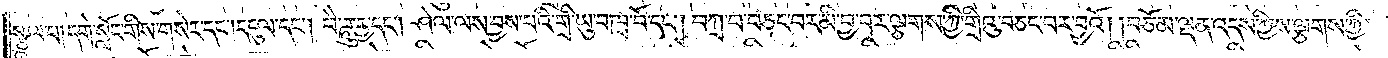སྩལ་པ། །དགེ་སློང་གིས་གསེར་དང༌། དངུལ་དང༌། བཻཌཱུཪྻ་དང༌། ཤེལ་ལས་བྱས་པའི་གྲི་ཡུ་བ་ཁྲ་བོ་དང༌། བཀྲ་བ་བཅང་བར་མི་བྱ་བར་ལྕགས་ཀྱི་གྲིའུ་བཅང་བར་བྱའོ། །བཅོམ་ལྡན་འདས་ཀྱིས་ལྕགས་ཀྱི་
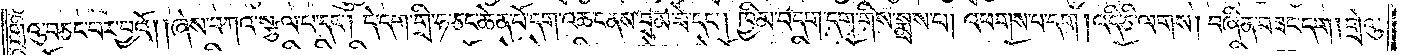གྲིའུ་བཅང་བར་བྱའོ། །ཞེས་བཀའ་སྩལ་པ་དང༌། དེ་དག་གྲི་ཧ་ཅང་ཆེན་པོ་དག་འཆང་ནས་བྲམ་ཟེ་དང༌། ཁྱིམ་བདག་དག་གིས་སྨྲས་པ། འཕགས་པ་དག །འདི་ཅི་ལགས། བཞིན་བཟང་དག །གྲེའུ་
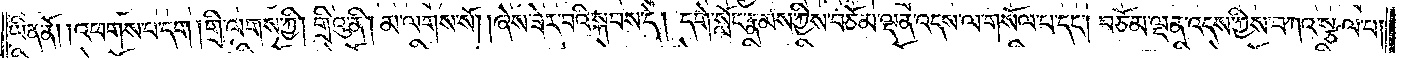ཡིན་ནོ། །འཕགས་པ་དག །གྲི་ལགས་ཀྱི། གྲིའུ་ནི། མ་ལགས་སོ། །ཞེས་ཟེར་བའི་སྐབས་དེ། དགེ་སློང་རྣམས་ཀྱིས་བཅོམ་ལྡན་འདས་ལ་གསོལ་བ་དང༌། བཅོམ་ལྡན་འདས་ཀྱིས་བཀའ་སྩལ་པ།
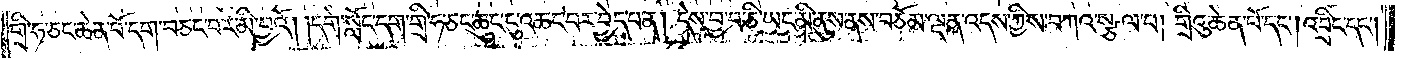གྲི་ཧ་ཅང་ཆེན་པོ་དག་བཅང་བར་མི་བྱའོ། །དགེ་སློང་དག་གྲི་ཧ་ཅང་ཆུང་ངུ་འཆང་བར་བྱེད་པ་ན། དེས་བྱ་བ་ཅི་ཡང་མི་ནུས་ནས་བཅོམ་ལྡན་འདས་ཀྱིས་བཀའ་སྩལ་པ། གྲིའུ་ཆེན་པོ་དང༌། འབྲིང་དང༌།
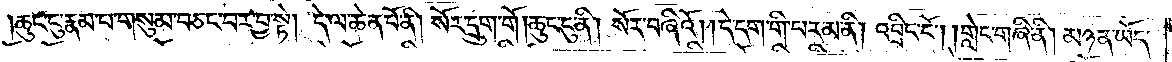ཆུང་ངུ་རྣམ་པ་གསུམ་བཅང་བར་བྱ་སྟེ། དེ་ལ་ཆེན་པོ་ནི། སོར་དྲུག་གོ །ཆུང་ངུ་ནི། སོར་བཞིའོ། །དེ་དག་གི་པར་མ་ནི། འབྲིང་ངོ༌། །གླེང་གཞི་ནི། མཉན་ཡོད་
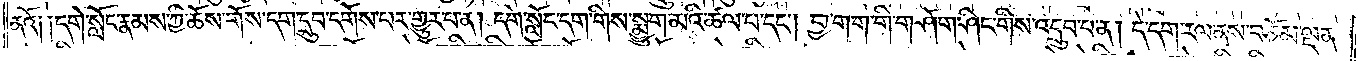ནའོ། །དགེ་སློང་རྣམས་ཀྱི་ཆོས་གོས་དག་དྲུབ་དགོས་པར་གྱུར་པ་ན། དགེ་སློང་དག་གིས་སྨྱུག་མའི་ཚལ་བ་དང༌། ཕྱག་ག་གི་གཤོག་ཤིང་གིས་འདྲུབ་པ་ན། དེ་དག་རལ་ནས་བཅོམ་ལྡན་
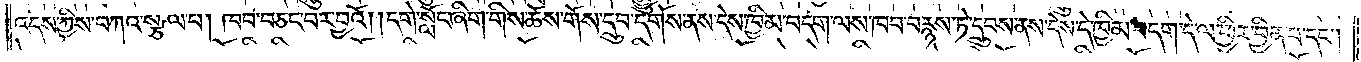འདས་ཀྱིས་བཀའ་སྩལ་པ། ཁབ་བཅང་བར་བྱའོ། །དགེ་སློང་ཞིག་གིས་ཆོས་གོས་དྲུབ་དགོས་ནས་དེས་ཁྱིམ་བདག་ལས་ཁབ་བརྙས་ཏེ་དྲུབས་ནས་དེས་དེ་ཁྱིམ་བདག་དེ་ལ་ཕྱིར་བྱིན་པ་དང༌།
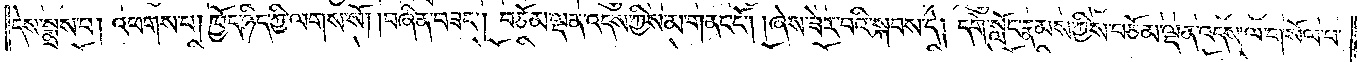དེས་སྨྲས་པ། འཕགས་པ། ཁྱོད་ཉིད་ཀྱི་ལགས་སོ། །བཞིན་བཟང༌། བཅོམ་ལྡན་འདས་ཀྱིས་མ་གནང་ངོ༌། །ཞེས་ཟེར་བའི་སྐབས་དེ། དགེ་སློང་རྣམས་ཀྱིས་བཅོམ་ལྡན་འདས་ལ་གསོལ་པ་
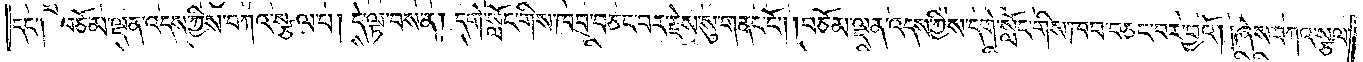དང༌། བཅོམ་ལྡན་འདས་ཀྱིས་བཀའ་སྩལ་པ། དེ་ལྟ་བས་ན། དགེ་སློང་གིས་ཁབ་བཅང་བར་རྗེས་སུ་གནང་ངོ༌། །བཅོམ་ལྡན་འདས་ཀྱིས་དགེ་སློང་གིས་ཁབ་བཅང་བར་བྱའོ། །ཞེས་བཀའ་སྩལ་
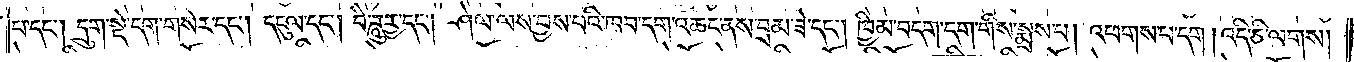པ་དང༌། དྲུག་སྡེ་དག་གསེར་དང༌། དངུལ་དང༌། བཻ་ཌཱུཪྻ་དང༌། ཤེལ་ལས་བྱས་པའི་ཁབ་དག་འཆང་ནས་བྲམ་ཟེ་དང༌། ཁྱིམ་བདག་དག་གིས་སྨྲས་པ། འཕགས་པ་དག །འདི་ཅི་ལགས།
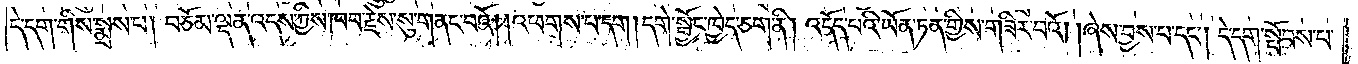དེ་དག་གིས་སྨྲས་པ། བཅོམ་ལྡན་འདས་ཀྱིས་ཁབ་རྗེས་སུ་གནང་བའོ། །འཕགས་པ་དག །དགེ་སྦྱོང་ཁྱེད་ཅག་ནི། འདོད་པའི་ཡོན་ཏན་གྱིས་གཟིར་བའོ། །ཞེས་བྱས་པ་དང༌། དེ་དག་སྤོབས་པ་
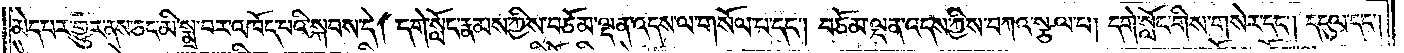མེད་པར་གྱུར་ནས་ཅང་མི་སྨྲ་བར་འཁོད་པའི་སྐབས་དེ། དགེ་སློང་རྣམས་ཀྱིས་བཅོམ་ལྡན་འདས་ལ་གསོལ་པ་དང༌། བཅོམ་ལྡན་འདས་ཀྱིས་བཀའ་སྩལ་པ། དགེ་སློང་གིས་གསེར་དང༌། དངུལ་དང༌།
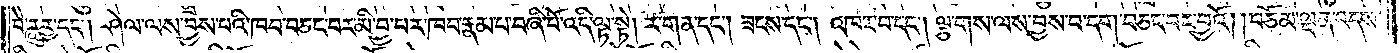བཻ་ཌཱུཪྻ་དང༌། ཤེལ་ལས་བྱས་པའི་ཁབ་བཅང་བར་མི་བྱ་བར་ཁབ་རྣམ་པ་བཞི་པོ་འདི་ལྟ་སྟེ། ར་གན་དང༌། ཟངས་དང༌། འཁར་བ་དང༌། ལྕ་གས་ལས་བྱས་པ་དག་བཅང་བར་བྱའོ། །བཅོམ་ལྡན་འདས།
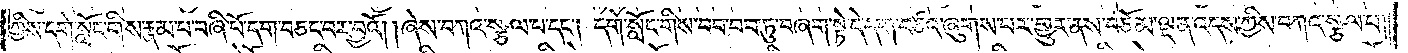ཀྱིས་དགེ་སློང་གིས་རྣམ་པ་བཞི་པོ་དག་བཅང་བར་བྱའོ། །ཞེས་བཀའ་སྩལ་པ་དང༌། དགེ་སློང་གིས་བབ་བབ་ཏུ་བཞག་སྟེ་དེ་དག་བཙའ་ཞུགས་པར་གྱུར་ནས་བཅོམ་ལྡན་འདས་ཀྱིས་བཀའ་སྩལ་པ།
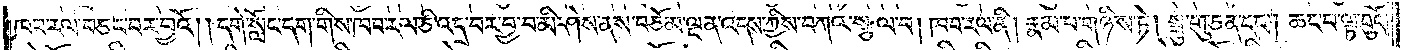ཁབ་རལ་བཅང་བར་བྱའོ། །དགེ་སློང་དག་གིས་ཁབ་རལ་ཅི་འདྲ་བར་བྱ་བ་མི་ཤེས་ནས་བཅོམ་ལྡན་འདས་ཀྱིས་བཀའ་སྩལ་པ། ཁབ་རལ་ནི། རྣམ་པ་གཉིས་ཏེ། སྦུ་གུ་ཅན་དང༌། ཆང་བ་ལྟ་བུའོ།
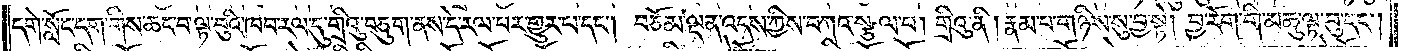དགེ་སློང་དག་གིས་ཆང་བ་ལྟ་བུའི་ཁབ་རལ་དུ་གྲིའུ་བཅུག་ནས་དེ་རལ་པར་གྱུར་པ་དང༌། བཅོམ་ལྡན་འདས་ཀྱིས་བཀའ་སྩལ་པ། གྲིའུ་ནི། རྣམ་པ་གཉིས་སུ་བྱ་སྟེ། བྱ་རོག་གི་མཆུ་ལྟ་བུ་དང༌།
